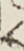༨
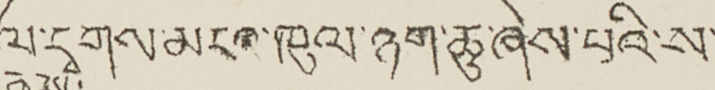ལ་དྭགས་མངའ་ཁུལ་ཉག་ཆུ་ཞེས་པའི་ས་
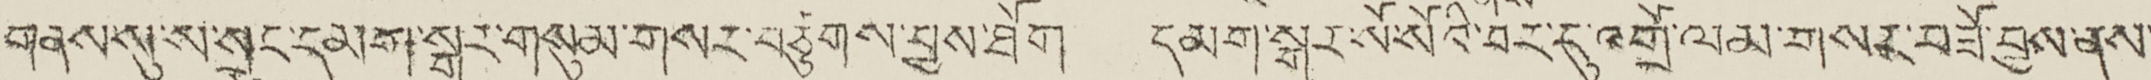གནས་སུ་ས་སྲུང་དམག་སྒར་གསུམ་གསར་བཙུགས་བྱས་ཐོག དམག་སྒར་སོ་སོའི་བར་དུ་འགྲོ་ལམ་གསར་བཟོ་བྱས་ནས་
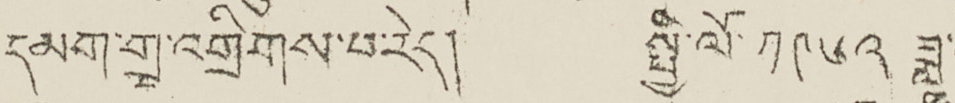དམག་གྲྭ་འགྲིགས་པ་རེད། སྤྱི་ལོ་ ༡༩༦༢ ཟླ་
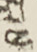༤
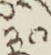༣༠
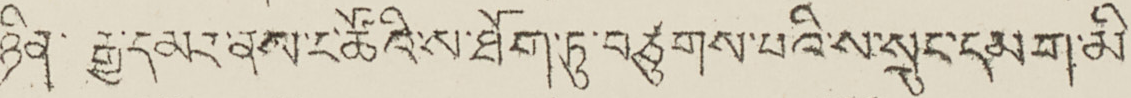ཉིན་ རྒྱ་དམར་ནས་ང་ཚོའི་ས་ཐོག་ཏུ་བཙུགས་པའི་ས་སྲུང་དམག་མི་
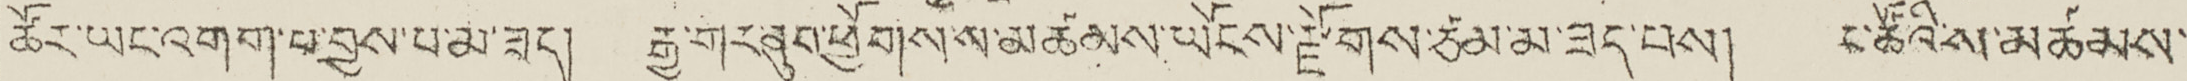ཚོར་ཡང་འགག་པ་བྱས་པ་མ་ཟད། རྒྱ་གར་ནུབ་ཕྱོགས་ས་མཚམས་ཡོངས་རྫོགས་ཙམ་མ་ཟད་པས། ང་ཚོའི་ས་མཚམས་
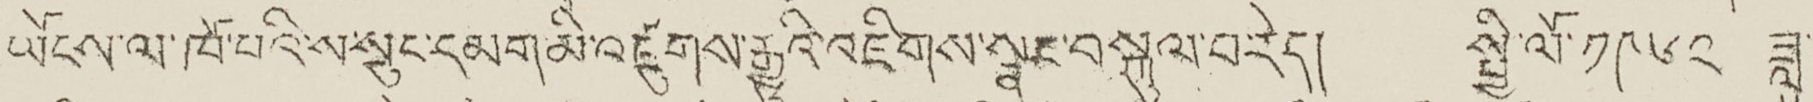ཡོངས་ལ་ཁོ་བའི་ས་སྲུང་དམག་མི་འཛུགས་རྒྱུའི་འཇིགས་སྣང་བསྐུལ་བ་རེད། སྤྱི་ལོ་ ༡༩༦༢ ཟླ་
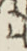༥
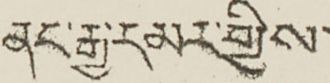ནང་རྒྱ་དམར་གྱིས་
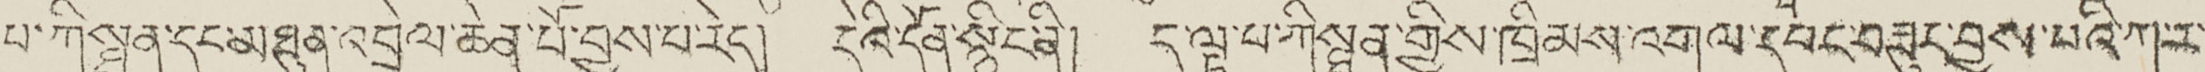པ་ཀིསྠན་དང་མཐུན་འབྲེལ་ཆེན་པོ་བྱས་པ་རེད། དེའི་དོན་སྙིང་ནི། ད་ལྟ་པ་ཀིསྠན་གྱིས་ཁྲིམས་འགལ་དབང་བཟུང་བྱས་པའི་ཀ་ར་
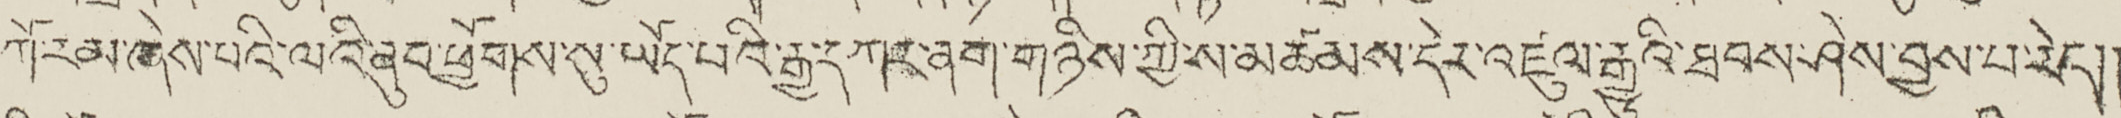གོ་རམ་ཞེས་པའི་ལའི་ནུབ་ཕྱོགས་སུ་ཡོད་པའི་རྒྱ་དཀར་ནག་གཉིས་ཀྱི་ས་མཚམས་དེར་འཛུལ་རྒྱུའི་ཐབས་ཤེས་བྱས་པ་རེད།།
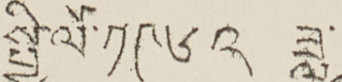སྤྱི་ལོ་ ༡༩༦༢ ཟླ་
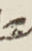༤
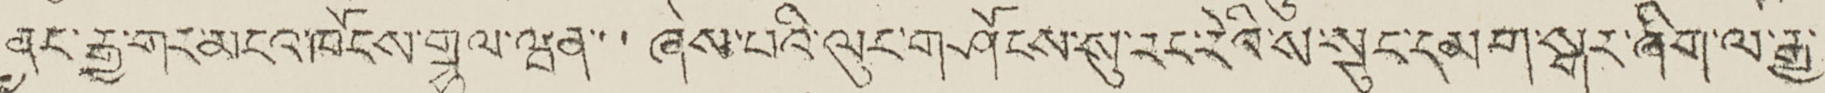ནང་རྒྱ་གར་མངའ་ཁོངས་གྷལ་ཝན་་ཞེས་པའི་ལུང་གཤོངས་སུ་རང་རེའི་ས་སྲུང་དམག་སྒར་ཞིག་ལ་རྒྱ་
